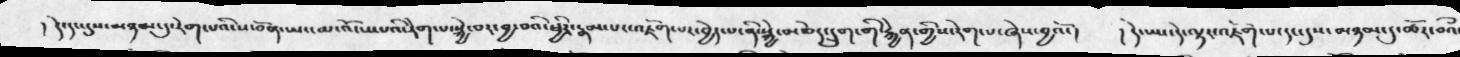།  དེ་དང་དུས་མཉམ་དུ་རེག་པའི་ས་བོན་ཡང་མ་འོངས་པའི་རེག་པ་སྐྱེ་བར་བྱ་བའི་ཕྱིར་རྣམ་པར་འཇོག་པར་བྱེད་པ་ནི་སྐྱེ་མཆེད་དྲུག་གི་རྐྱེན་གྱིས་རེག་པ་ཞེས་བྱའོ་།  །དེ་ཡང་དེ་ལྟར་འཇོག་པ་དང་དུས་མཉམ་དུ་ཚོར་བའྀ
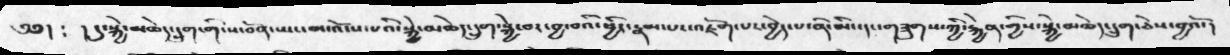༄༅།  ༴  །དུ་སྐྱེ་མཆེད་དྲུག་གི་ས་བོན་ཡང་མ་འོངས་པའི་སྐྱེ་མཆེད་དྲུག་སྐྱེ་བར་བྱ་བའི་ཕྱིར་རྣམ་པར་འཇོག་པར་བྱེད་པ་ནི་མིང་དང་གཟུགས་ཀྱི་རྐྱེན་གྱིས་སྐྱེ་མཆེད་དྲུག་ཅེས་བྱའོ་།
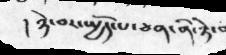།  ཉེ་བར་སྤྱོད་པ་ཅན་ནི་ཉེ་བ
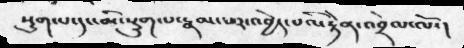སྡུག་པ་དང་མི་སྡུག་པ་རྣམ་པར་འབྱེད་པའི་རྟེན་འབྲེལ་ལོ་།
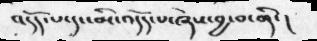འདོད་པ་དང་མི་འདོད་པ་ཞེས་བྱ་བ་ནི་།
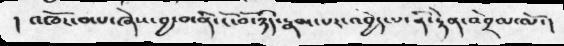། འཁོར་བ་པ་ཞེས་བྱ་བ་ནི་ངོ་བོ་ཉིད་རྣམ་པར་འབྱེད་པ་ནི་རྟེན་འབྲེལ་ལོ་།
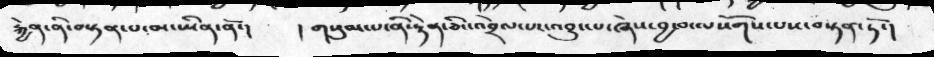རྐྱེན་ནི་བསྟན་པ་མ་ཡིན་ནོ་།   །གསུམ་པ་ནི་རྟེན་ཅིང་འབྲེལ་པར་འབྱུང་པ་ཞེས་བྱ་བ་ལསོགས་པས་བསྟན་ཏོ་།
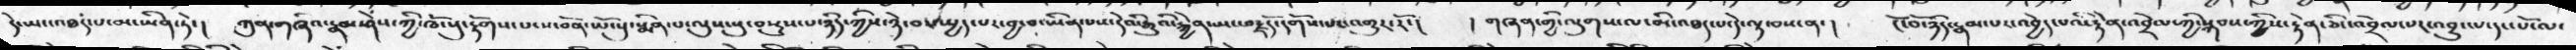དེ་ཡང་འཐད་པ་མ་ཡིན་ཏེ་།  ཀུན་གཞིའ་རྣམ་ཤེས་ཀྱི་ཁོངསུ་རྟོགས་པ་ས་བོན་ཡོངསུ་སྨིན་པ་ལུས་སུ་བསྡུས་པ་ཉིད་ཀྱིས་ཉེ་བར་སྤྱད་པར་བྱ་བ་ཡིན་པས་དེའི་རྒྱུའི་རྐྱེན་ཡང་བརྗོད་དགོས་པར་འགྱུར་རོ་།  །གཞན་གྱི་ལུགས་ལ་མི་འཐད་པ་དེ་ལྟ་བས་ན་།   ངོ་བོ་ཉིད་རྣམ་པར་འབྱེད་པའི་རྟེན་འབྲེལ་ཀྱི་སྐབས་ཀྱིས་རྟེན་ཅིང་འབྲེལ་པར་འབྱུང་པ་དང་པོ་ལ་
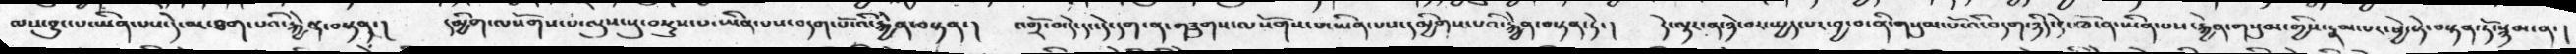ལས་བྱུང་པ་ཡིན་པས་དེ་མ་ཐག་པའི་རྐྱེན་བསྟན་།   དམྱིག་ལསོགས་པ་ལུས་སུ་བསྡུས་པ་ཡིན་པས་བདག་པོ་འི་རྐྱེན་བསྟན་།  འགྲོ་བ་དེ་དང་དེ་དག་ན་གཟུགས་ལསོགས་པ་ཡིན་པས་དམྱིགས་པའི་རྐྱེན་བསྟན་ཏེ་།   དེ་ལྟར་ན་ཉེ་བར་སྤྱད་པར་བྱ་བ་ནི་གསུམ་པོ་འི་བདག་ཉིད་དེ་ཁོ་ན་ཡིན་པས་རྐྱེན་གསུམ་གྱིས་རྣམ་པར་ཕྱེ་སྟེ་བསྟན་ཏོ་སྙམ་ན་།
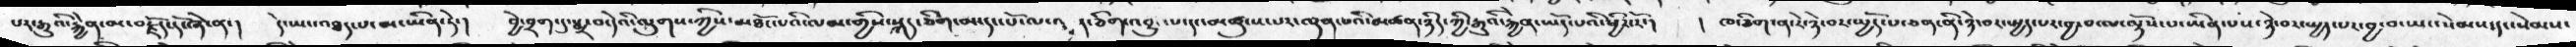པར་རྒྱུའི་རྐྱེན་མ་བརྗོད་དོ་ཞེ་ན་།   དེ་ཡང་འཐད་པ་མ་ཡིན་ཏེ་།   བྱེ་བྲག་དུ་སྨྲ་བ་དེའི་ལུགས་ཀྱིས་མཐོང་པའི་ལམ་གྱིས་སྐད་ཅིག་མ་དང་པོ་ལ་།   །་ཅིག་འབྱུང་པ་དང་མཚུངས་པར་ལྡན་པའི་མཚན་ཉིད་ཀྱི་རྒྱུའི་རྐྱེན་ཡོད་པའི་ཕྱིར་རོ་།   ། ཁ་ཅིག་ན་རེ་ཉེ་བར་སྤྱོད་པ་ཅན་ནི་ཉེ་བར་སྤྱད་པར་བྱ་བ་ལ་ལྟོས་པ་ཡིན་པས་ཉེ་བར་སྤྱད་པར་བྱ་བ་ཡང་སེམས་དང་སེམས་
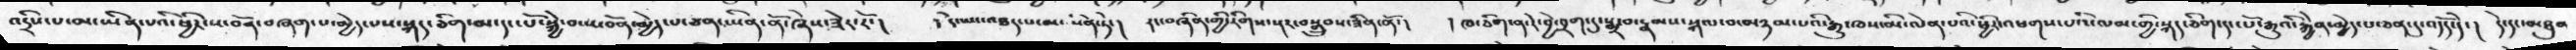འདྲིས་པ་མ་ཡིན་པའི་ཕྱིར་ས་བོན་བཞག་པ་མྱེད་པས་སྐད་ཅིག་མ་དང་པོ་སྐྱེ་བ་ས་བོན་མྱེད་པ་ཅན་ཡིན་ནོ་ཞེས་ཟེར་རོ་།  །དེ་ཡང་འཐད་པ་མ་ཡིན་ཏེ་།   རང་བཞིན་གྱི་རིགས་སྔར་བསྒྲུབས་ཟིན་ནོ་།  །ཁ་ཅིག་ན་རེ་བྱེ་བྲག་དུ་སྨྲ་བ་རྣམས་སྐལ་བ་མཉམ་པའི་རྒྱུ་ཁས་མི་ལེན་པའི་ཕྱིར་འཕགས་པའི་ལམ་གྱི་སྐད་ཅིག་དང་པོ་རྒྱུའི་རྐྱེན་མྱེད་པ་ཅན་དུ་འདོད་དེ་།  དེ་དང་མཐུན
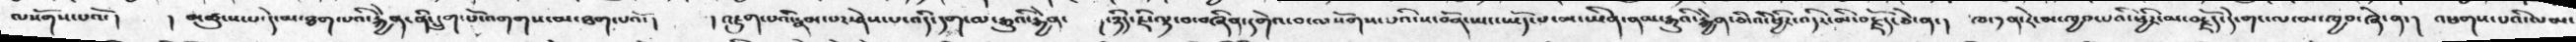ལསོགས་པའོ་།   །མཚུངས་པ་དེ་མ་ཐག་པའི་རྐྱེན་ནི་དྲུག་པོ་འགགས་མ་ཐག་པའོ་།   །འཇུག་པའི་རྣམ་པར་ཤེས་པ་འདི་དག་ལ་རྒྱུའི་རྐྱེན་  །་ཉིད་ཇི་ལྟ་བ་བཞིན་དགེའ་བ་ལསོགས་པའི་ས་བོན་ཡང་ཡོད་པ་མ་ཡིན་ནམ་རྒྱུའི་རྐྱེན་ཅི་འི་ཕྱིར་འདིར་མི་བརྗོད་ཅེ་ན་།  ཁ་༡ན་རེ་མ་ཁྱབ་པའི་ཕྱིར་མ་བརྗོད་དེ་གང་ལ་མ་ཁྱབ་ཞེ་ན་།  འཕགས་པའི་ལམ་
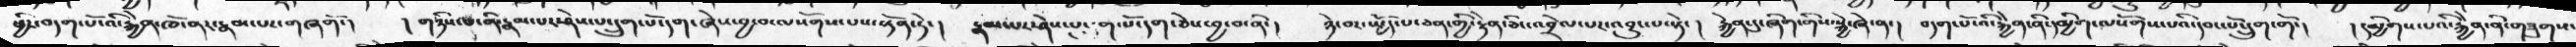ཕྱིར་བདག་པོ་འི་རྐྱེན་ཁོ་ནར་རྣམ་པར་གཞགོ་།   །གཉིས་པ་ནི་རྣམ་པར་ཤེས་པ་དྲུག་པོ་དག་ཞེས་བྱ་བ་ལསོགས་པས་སྟོན་ཏེ་།   རྣམ་པར་ཤེས་པ་དྲུག་པོ་དག་ཅེས་བྱ་བ་ནི་།   ཉེ་བར་སྤྱོད་པ་ཅན་གྱི་རྟེན་ཅིང་འབྲེལ་པར་འབྱུང་པ་སྟེ་།  རྐྱེན་དུ་ཞིག་གིས་སྐྱེ་ཞེ་ན་།  བདག་པོ་འི་རྐྱེན་ནི་དམྱིག་ལསོགས་པའི་དབང་པོ་དྲུག་གོ་།  །དམྱིགས་པའི་རྐྱེན་ནི་གཟུགས་
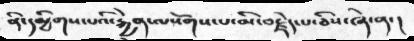ནི་དམྱིགས་པའི་རྐྱེན་ལསོགས་པ་མི་བརྗེད་པ་ཅིས་ཞེ་ན་།
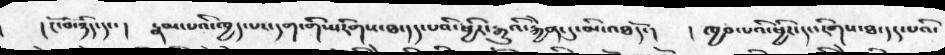།    ངོ་བོ་ཉིད་དང་།  རྣམ་པའི་ཁྱད་པར་དག་གིས་རིགས་ཐ་དད་པའི་ཕྱིར་རྒྱུའི་རྐྱེན་དུ་མི་འཐདོ་།  །ཁྱབ་པའི་ཕྱིར་དང་རིགས་ཐ་དད་པའི་
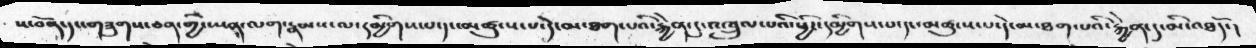ས་བོན་དང་གཟུགས་ཅན་གྱི་ཡན་ལག་རྣམས་ལ་དམྱིགས་པ་དང་མཚུངས་པ་དེ་མ་ཐག་རྐྱེན་དུ་འཁྲུལ་པའི་ཕྱིར་དམྱིགས་པ་དང་མཚུངས་པ་དེ་མ་ཐག་པའི་རྐྱེན་དུ་མི་འཐདོ་།
